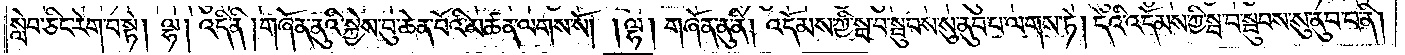སླེབ་ཅིང་རེག་པ་སྟེ། ལྷ། འདི་ནི། གཞོན་ནུའི་སྐྱེས་བུ་ཆེན་པོའི་མཚན་ལགས་སོ། །ལྷ། གཞོན་ནུ་ནི། འདོམས་ཀྱི་སྦ་བ་སྦུབས་སུ་ནུབ་པ་ལགས་ཏེ། དེའི་འདོམས་ཀྱི་སྦ་བ་སྦུབས་སུ་ནུབ་པ་ནི།
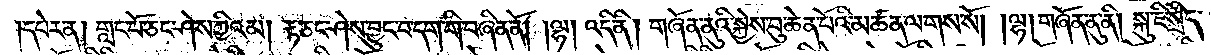དཔེར་ན། གླང་པོ་ཅང་ཤེས་ཀྱིའམ། རྟ་ཅང་ཤེས་བྱུང་བ་དག་གི་བཞིན་ནོ། །ལྷ། འདི་ནི། གཞོན་ནུའི་སྐྱེས་བུ་ཆེན་པོའི་མཚན་ལགས་སོ། །ལྷ། གཞོན་ནུ་ནི། སྐུ་ཇི་སྲིད་
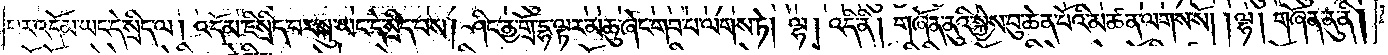པར་འདོམ་ཡང་དེ་སྲིད་ལ། འདོམ་ཇི་སྲིད་པར་སྐུ་ཡང་དེ་སྲིད་པས། ཤིང་ནྱ་གྲོ་དྷ་ལྟར་མཆུ་ཞེང་གབ་པ་ལགས་ཏེ། ལྷ། འདི་ནི། གཞོན་ནུའི་སྐྱེས་བུ་ཆེན་པོའི་མཚན་ལགས་སོ། །ལྷ། གཞོན་ནུ་ནི།
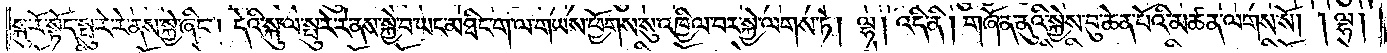སྐུ་རོ་སྟོད་སྤུ་རེ་རེ་ནས་སྐྱེ་ཞིང༌། དེའི་སྐུ་ལ་སྤུ་རེ་རེ་ནས་སྐྱེ་བ་ཡང་མཐིང་ག་ལ་གཡས་ཕྱོགས་སུ་འཁྱིལ་བར་སྐྱེ་ལགས་ཏེ། ལྷ། འདི་ནི། གཞོན་ནུའི་སྐྱེས་བུ་ཆེན་པོའི་མཚན་ལགས་སོ། །ལྷ།
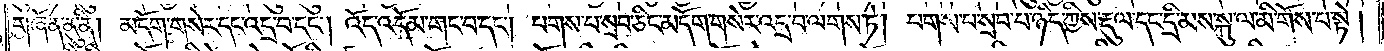གཞོན་ནུ་ནི། མདོག་གསེར་དང་འདྲ་བ་དང༌། འོད་འདོམ་གང་བ་དང༌། པགས་པ་སྲབ་ཅིང་མདོག་གསེར་འདྲ་བ་ལགས་ཏེ། པགས་པ་སྲབ་པ་ཉིད་ཀྱིས་རྡུལ་དང་དྲི་མས་སྐུ་ལ་མི་གོས་པ་སྟེ།
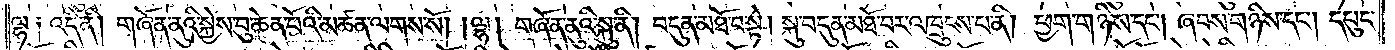ལྷ། འདི་ནི། གཞོན་ནུའི་སྐྱེས་བུ་ཆེན་པོའི་མཚན་ལགས་སོ། །ལྷ། གཞོན་ནུའི་སྐུ་ནི། བདུན་མཐོ་བ་སྟེ། སྐུ་བདུན་མཐོ་བར་འཁྲུངས་པ་ནི། ཕྱག་གཉིས་དང༌། ཞབས་གཉིས་དང༌། དཔུང་
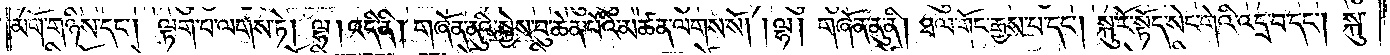མགོ་གཉིས་དང༌། ལྟག་པ་ལགས་ཏེ། ལྷ། འདི་ནི། གཞོན་ནུའི་སྐྱེས་བུ་ཆེན་པོའི་མཚན་ལགས་སོ། །ལྷ། གཞོན་ནུ་ནི། ཐལ་གོང་རྒྱས་པ་དང༌། སྐུ་རོ་སྟོད་སེང་གེའི་འདྲ་བ་དང༌། སྐུ་
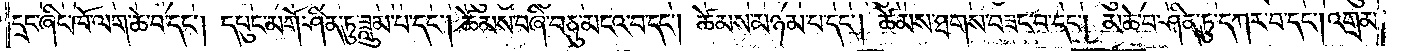དྲང་ཞིང་ཁོ་ལག་ཆེ་བ་དང༌། དཔུང་མགོ་ཤིན་ཏུ་ཟླུམ་པ་དང༌། ཚེམས་བཞི་བཅུ་མངའ་བ་དང༌། ཚེམས་མཉམ་པ་དང༌། ཚེམས་ཐགས་བཟང་བ་དང༌། མཆེ་བ་ཤིན་ཏུ་དཀར་པ་དང༌། འགྲམ་
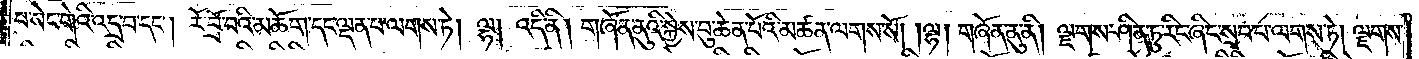བ་སེང་གེའི་འདྲ་བ་དང༌། རོ་བྲོ་བའི་མཆོག་དང་ལྡན་པ་ལགས་ཏེ། ལྷ། འདི་ནི། གཞོན་ནུའི་སྐྱེས་བུ་ཆེན་པོའི་མཚན་ལགས་སོ། །ལྷ། གཞོན་ནུ་ནི། ལྗགས་ཤིན་ཏུ་རིང་ཞིང་སྲབ་པ་ལགས་ཏེ། ལྗགས་
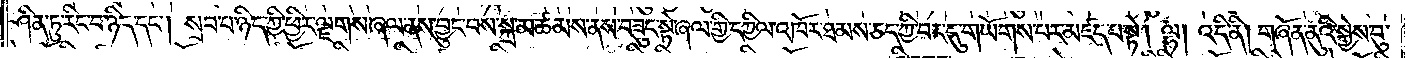ཤིན་ཏུ་རིང་བ་ཉིད་དང༌། སྲབ་པ་ཉིད་ཀྱི་ཕྱིར་ལྗགས་ཞལ་ནས་བྱུང་བས་སྐྲ་མཚམས་ནས་བཟུང་སྟེ་ཞལ་གྱི་དཀྱིལ་འཁོར་ཐམས་ཅད་ཀྱི་བར་དུ་གཡོགས་པར་མཛད་པ་སྟེ། ལྷ། འདི་ནི། གཞོན་ནུའི་སྐྱེས་བུ་
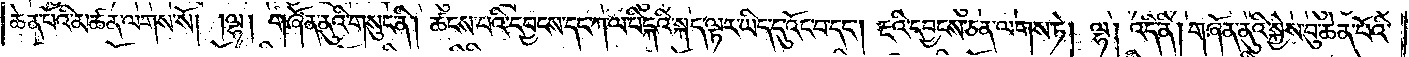ཆེན་པོའི་མཚན་ལགས་སོ། །ལྷ། གཞོན་ནུའི་གསུང་ནི། ཚངས་པའི་དབྱངས་དང་ཀ་ལ་པིངྐའི་སྐད་ལྟར་ཡིད་དུ་འོང་བ་དང༌། རྔའི་དབྱངས་ཅན་ལགས་ཏེ། ལྷ། འདི་ནི། གཞོན་ནུའི་སྐྱེས་བུ་ཆེན་པོའི་
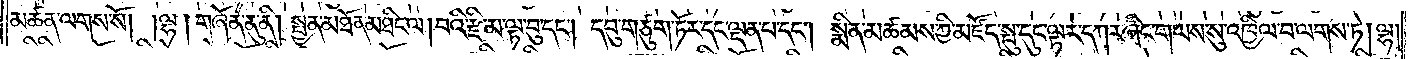མཚན་ལགས་སོ། །ལྷ། གཞོན་ནུ་ནི། སྤྱན་མཐོན་མཐིང་ལ། བའི་རྫི་མ་ལྟ་བུ་དང༌། དབུ་གཙུག་ཏོར་དང་ལྡན་པ་དང༌། སྨིན་མཚམས་ཀྱི་མཛོད་སྤུ་དུང་ལྟར་དཀར་ཞིང་གཡས་སུ་འཁྱིལ་བ་ལགས་ཏེ། ལྷ།
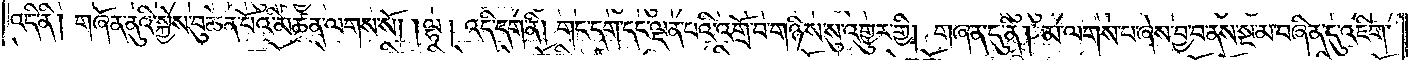འདི་ནི། གཞོན་ནུའི་སྐྱེས་བུ་ཆེན་པོའི་མཚན་ལགས་སོ། །ལྷ། འདི་དག་ནི། གང་དག་དང་ལྡན་པའི་འགྲོ་བ་གཉིས་སུ་འགྱུར་གྱི། གཞན་དུ་ནི། མ་ལགས་པ་ཞེས་བྱ་བ་ནས་སྔ་མ་བཞིན་དུ་འཇིག་
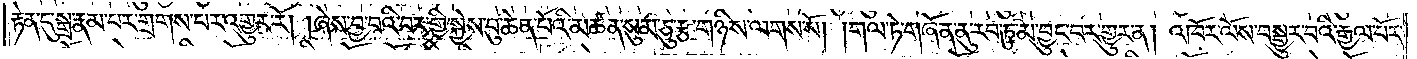རྟེན་དུ་སྒྲ་རྣམ་པར་གྲགས་པར་འགྱུར་རོ། །ཞེས་བྱ་བའི་བར་གྱི་སྐྱེས་བུ་ཆེན་པོའི་མཚན་སུམ་ཅུ་རྩ་གཉིས་ལགས་སོ། །གལ་ཏེ་གཞོན་ནུ་རབ་ཏུ་མ་བྱུང་བར་གྱུར་ན། འཁོར་ལོས་བསྒྱུར་བའི་རྒྱལ་པོར་
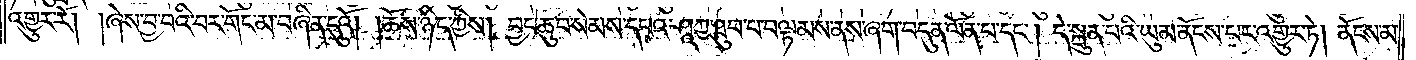འགྱུར་རོ། །ཞེས་བྱ་བའི་བར་གོང་མ་བཞིན་དུའོ། །ཆོས་ཉིད་ཀྱིས། བྱང་ཆུབ་སེམས་དཔའ་ཤཱཀྱ་ཐུབ་པ་བལྟམས་ནས་ཞག་བདུན་ལོན་པ་དང༌། དེ་སྐྲུན་པའི་ཡུམ་ནོངས་པར་འགྱུར་ཏེ། ནོངས་མ་
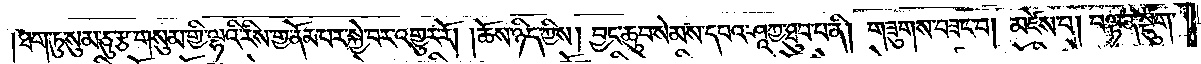།ཐག་ཏུ་སུམ་ཅུ་རྩ་གསུམ་གྱི་ལྷའི་རིས་གྱ་ནོམ་པར་སྐྱེ་བར་འགྱུར་རོ། །ཆོས་ཉིད་ཀྱིས། བྱང་ཆུབ་སེམས་དཔའ་ཤཱཀྱ་ཐུབ་པ་ནི། གཟུགས་བཟང་བ། མཛེས་པ། བལྟ་ན་སྡུག་
